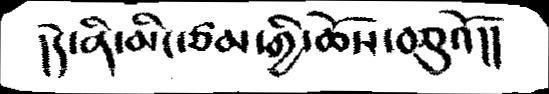།དེ་ནི་མིང་ཙམ་གྱི་ཆོས་བཅུའོ།།
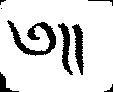༄།།
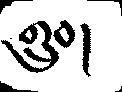གྲུབ།
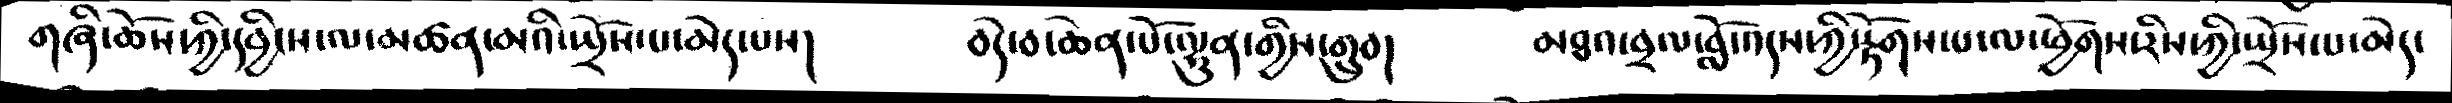གཞི་ཆོས་ཀྱི་དབྱིངས་ལ་མཚན་མའི་སྤྲོས་པ་མེད་པས།    བདེ་བ་ཆེན་པོ་ལྷུན་གྱིས་གྲུབ།     མཐའ་བྲལ་བློ་འདས་ཀྱི་རྟོགས་པ་ལ་ཕྱོགས་རིས་ཀྱི་སྤྲོས་པ་མེད་
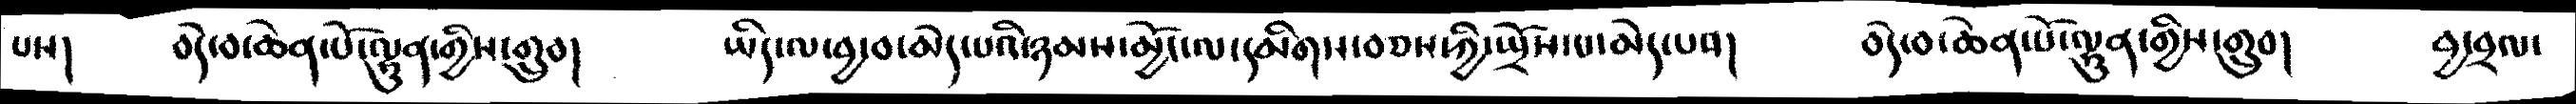པས།   བདེ་བ་ཆེན་པོ་ལྷུན་གྱིས་གྲུབ།    ཡིད་ལ་བྱ་བ་མེད་པའི་ཉམས་མྱོང་ལ་དམིགས་བཅས་ཀྱི་སྤྲོས་པ་མེད་པའ།     བདེ་བ་ཆེན་པོ་ལྷུན་གྱིས་གྲུབ།  བྱ་བྲལ་
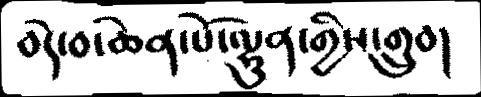བདེ་བ་ཆེན་པོ་ལྷུན་གྱིས་གྲུབ།
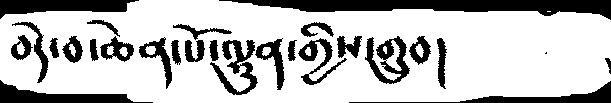བདེ་བ་ཆེན་པོ་ལྷུན་གྱིས་གྲུབ།
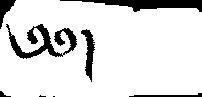༄༅།
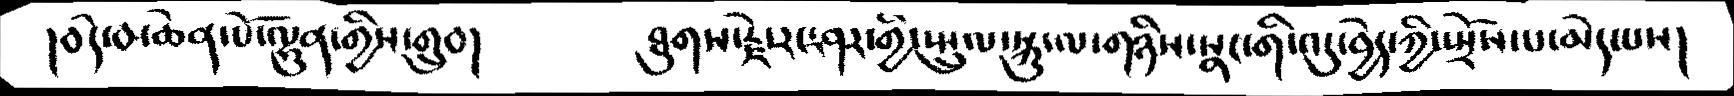།བདེ་བ་ཆེན་པོ་ལྷུན་གྱིས་གྲུབ།   ཐུགས་རྗེ་རང་ཤར་གྱི་སྤྲུལ་སྐུ་ལ་གཉིས་སྣང་གི་འདུ་བྱེད་ཀྱི་སྤྲོས་པ་མེད་པས།
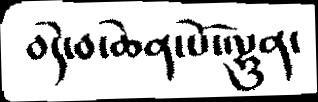བདེ་བ་ཆེན་པོ་ལྷུན་
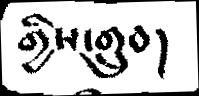གྱིས་གྲུབ།
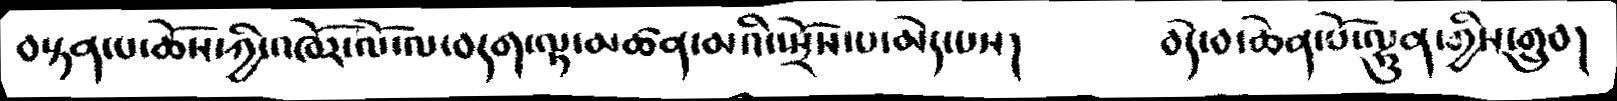བསྟན་པ་ཆོས་ཀྱི་འཁོར་ལོ་ལ་བདག་ལྟ་མཚན་མའི་སྤྲོས་པ་མེད་པས།  བདེ་བ་ཆེན་པོ་ལྷུན་གྱིས་གྲུབ།
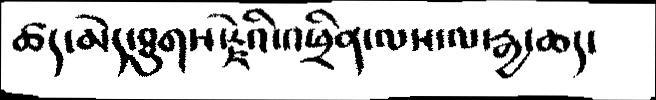ཚད་མེད་ཐུགས་རྗེའི་འཕྲིན་ལས་ལ་རྒྱ་ཆད་
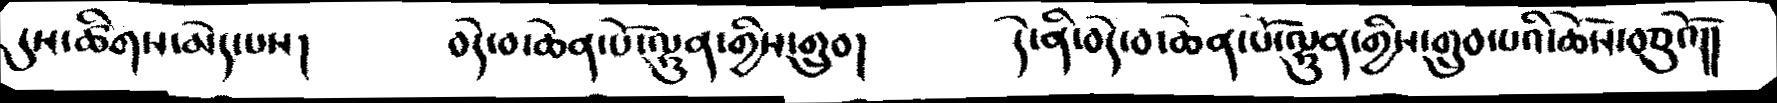དུས་ཚིགས་མེད་པས།   བདེ་བ་ཆེན་པོ་ལྷུན་གྱིས་གྲུབ།       དེ་ནི་བདེ་བ་ཆེན་པོ་ལྷུན་གྱིས་གྲུབ་པའི་ཆོས་བཅུའོ།།
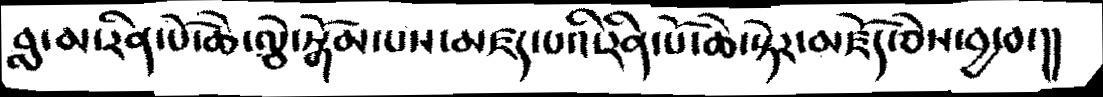བླ་མ་རིན་པོ་ཆེ་ལྕེ་སྒོམ་པས་མཛད་པའི་རིན་པོ་ཆེ་སྟེར་མཛོད་ཅེས་བྱ་བ་།།
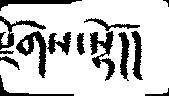རྫོགས་སྷོ།།
